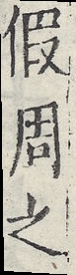假周之
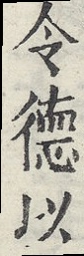令德以
